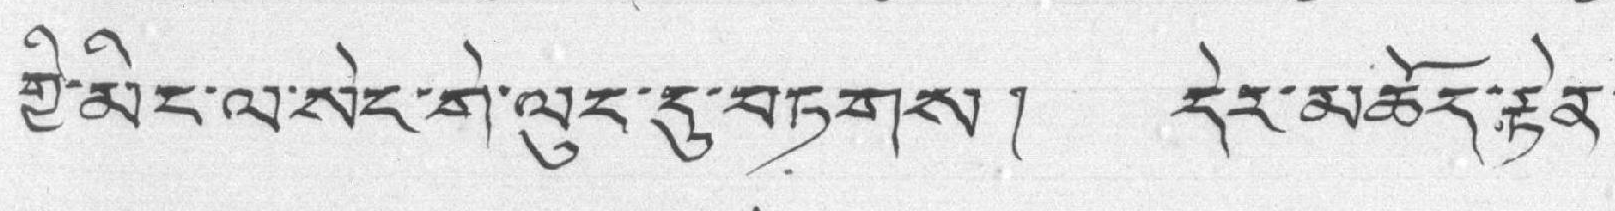གྱི་མིང་ལ་སེང་གེ་ལུང་དུ་བཏགས། དེར་མཆོད་རྟེན་
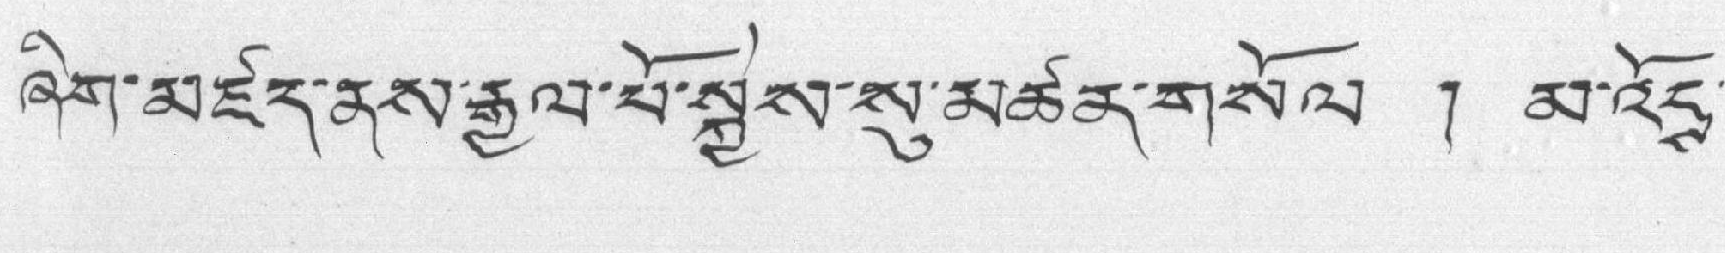ཞིག་མཛད་ནས་རྒྱལ་པོ་སྐྱེས་སུ་མཚན་གསོལ ། མ་འོངས་
